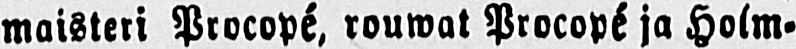maisteri Procopé, rouwat Procopé ja Holm-
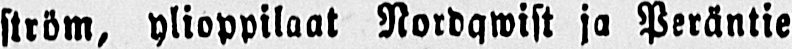ström, ylioppilaat Nordqwist ja Peräntie
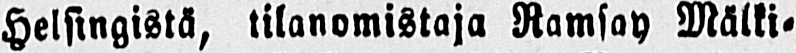Helsingistä, tilanomistaja Ramsay Mälki-
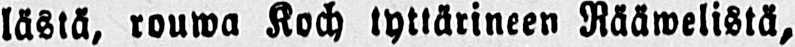lästä, rouwa Koch tyttärineen Rääwelistä,
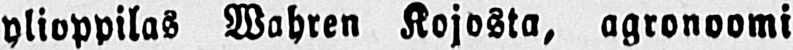ylioppilas Wahren Kojosta, agronoomi
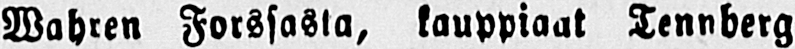Wahren Forssasla, kauppiaat Tennberg
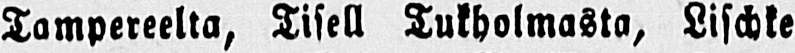Tampereelta, Tisell Tukholmasta, Lischke
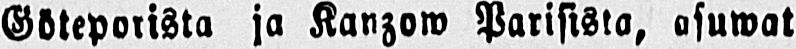Göteporista ja Kanzow Parisista, asuwat
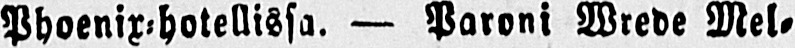Phoenix-hotellissa. — Paroni Wrede Mel-
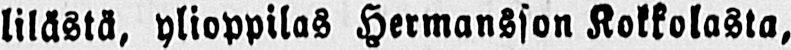lilästä, ylioppilas Hermansson Kokkolasta,
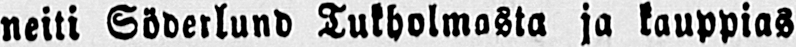neiti Söderlund Tukholmasta ja kauppias
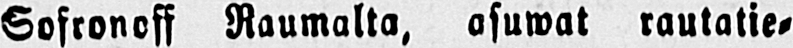Sofronoff Raumalta, asuwat rautatie-
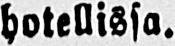hotellissa.
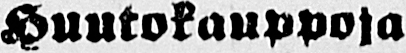Huutokauppoja.
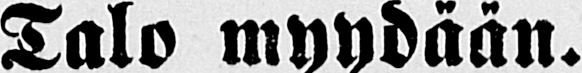Talo myydään.
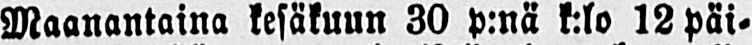Maanantaina kesäkuun 30 p:nä k:lo 12 päi-
